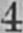4
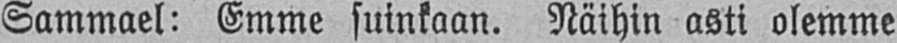Sammael: Emme suinkaan. Näihin asti olemme
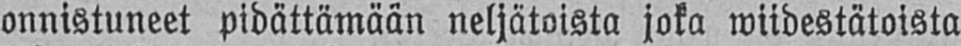onnistuneet pidättämään neljätoista joka wiidestätoista
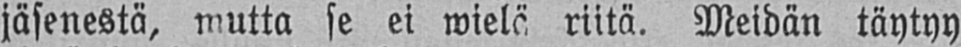jäsenestä, mutta se ei wielä riitä. Meidän täytyy
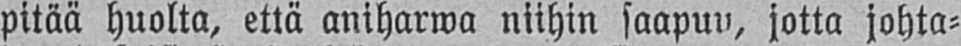pitää huolta, että aniharwa niihin saapuu, jotta johta-
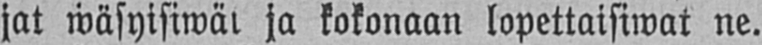jat wäsyisiwät ja kokonaan lopettaisiwat ne.
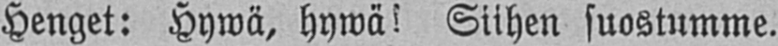Henget: Hywä, hywä! Siihen suostumme.
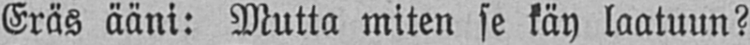Eräs ääni: Mutta miten se käy laatuun?
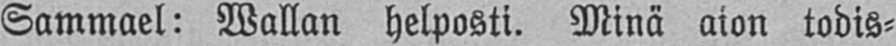Sammael: Wallan helposti. Minä aion todis-
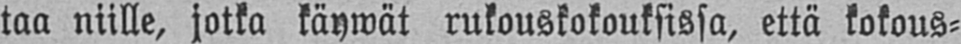taa niille, jotka käywät rukouskokouksissa, että kokous-
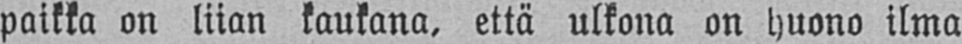paikka on liian kaukana, että ulkona on huono ilma
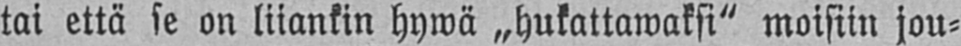tai että se on liiankin hywä „hukattawaksi" moisiin jou-
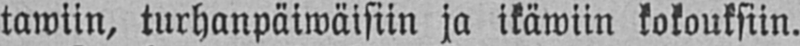tawiin, turhanpäiwäisiin ja ikäwiin kokouksiin.
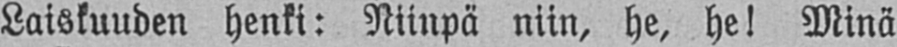Laiskuuden henki: Niinpä niin, he, he! Minä
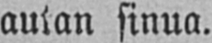autan sinua.
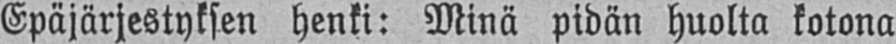Epäjärjestyksen henki: Minä pidän huolta kotona
